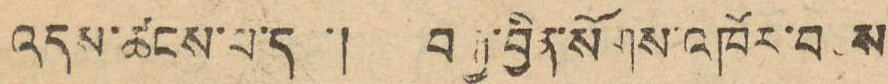འདས་ཚངས་པ་དང་། བརྒྱ་བྱིན་སོགས་འཁོར་བཅས
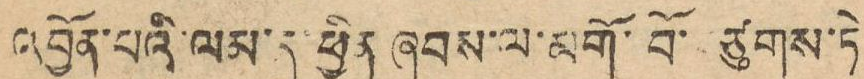འབྱོན་པའི་ལམ་དུ་ཕྱིན་ཞབས་ལ་མགོ་བོ་ ཙུགས་ཏེ
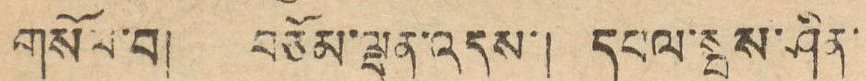གསོལ་བ། བཅོམ་ལྡན་འདས་། དཔལ་སྦས་ཤིན་
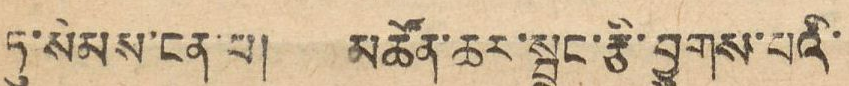ཏུ་སེམས་ངན་པ། མཚོན་ཆར་སྦྲང་རྩི་བྱུགས་པའི་
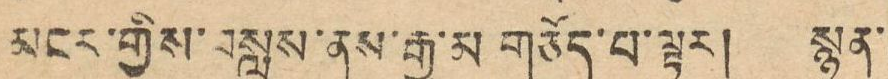མངར་གྱིས་བསླུས་ནས་རྒྱུ་མ གཅོད་པ་ལྟར། སྙན་
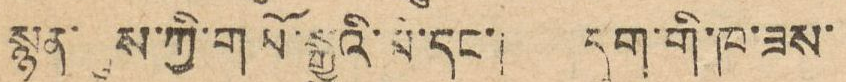སྙན་དུས་ཀྱི་གཡོ་སྒྱུའི་མི་དང་། དུག་གི་ཁ་ཟས་
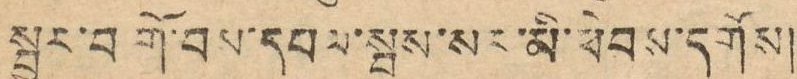སྦྱར་བགོ་བས་དཔལ་སྦས་སར་མི་ཕེབས་དགོས།
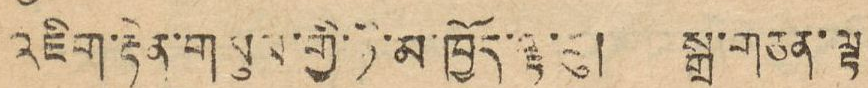འཇིག་རྟེན་གསུམ་གྱི་ཉི་མ་ཁྱོད་ལྟ་བུ། སྒྲ་གཅན་ལྟ
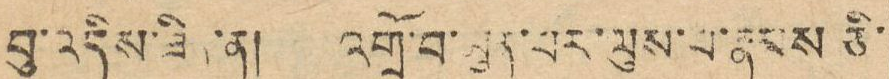བུ་འདིས་ཟིན་ན། འགྲོ་བ་མུན་པར་ལུས་པ་རྣམས ཅི་
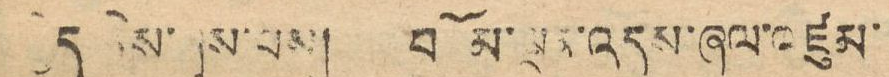བྱེད་ངེས་ཞུས་པས། བཅོམ་ལྡན་འདས་ཞལ་འཛུམ་
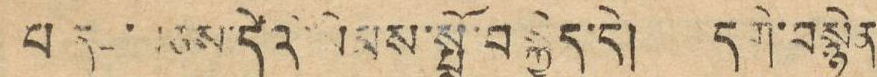པ་དང་བཅས་དེའི་སེམས་སྤྲོ་བསྐྱེད་དེ། དགེ་བསྙེན
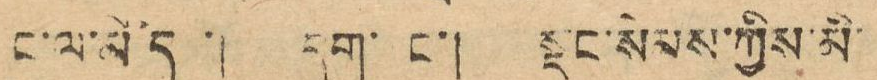ང་ལ་མེ་ད ་། དུག་ ང་། སྡང་སེམས་ཀྱིས་མི་
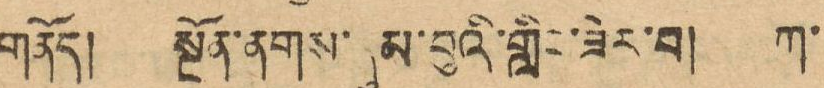གནོད། སྔོན་ནགས་ཞུམ་བུའི་གླིང་ཟེར་བ། ཀ་
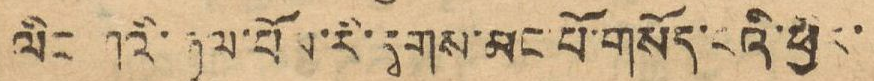ལིང་ཀའི་རྒྱལ་པོས་རི་དྭགས་མང་པོ་གསོད་ངའི་ཕྱིར་
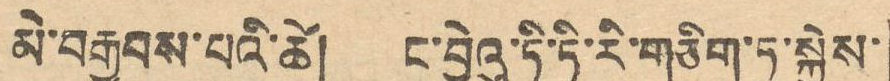མེ་བརྒྱགས་པའི་ཚེ། ང་བྱེའུ་ཏི་ཏི་རི་གཅིག་ཏུ་སྐྱེས་
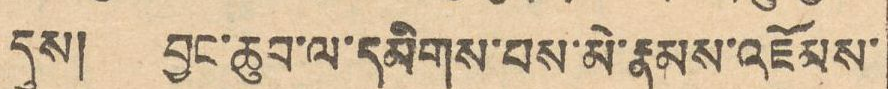དུས། བྱང་ཆུབ་ལ་དམིགས་པས་མི་རྣམས་འཛོམས་
